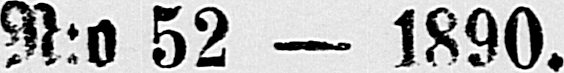N:o 52 — 1890.
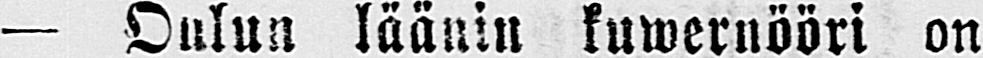— Oulun läänin kuwernööri on
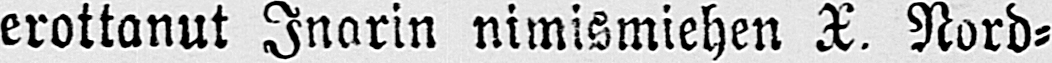erottanut Inarin nimismiehen T. Nord-
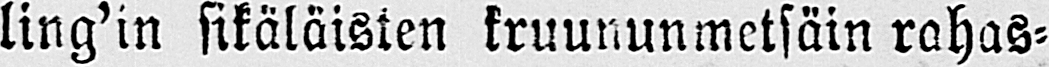lingin sikäläisten kruununmetsäin rahas-
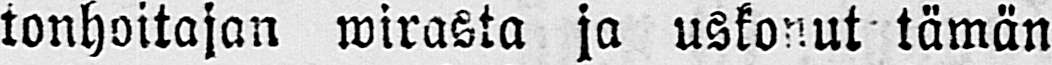tonhoitajan wirasta ja uskonut tämän
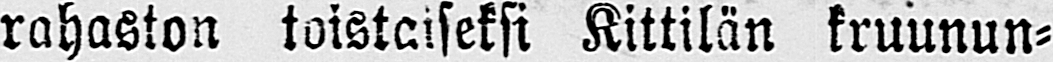rahaston toistaiseksi Kittilän kruunun-
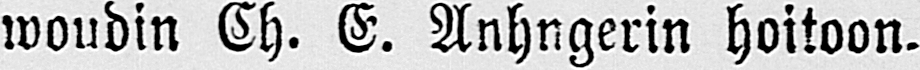woudin Ch. E. Anhngerin hoitoon.
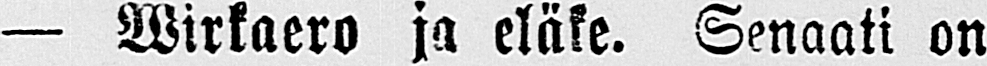— Wirkaero ja eläke. Senaati on
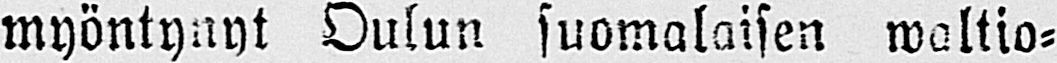myöntynyt Oulun suomalaisen waltio-
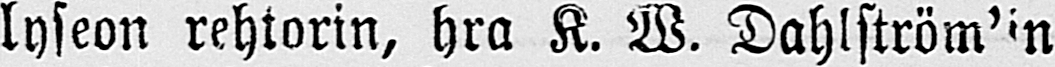lyseon rehtorin, hra K. W. Dahlström'in
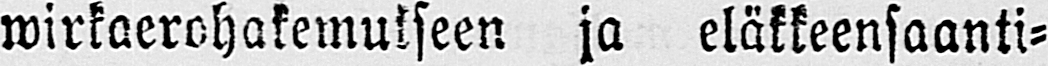wirkaerohakemukseen ja eläkkeensaanti-
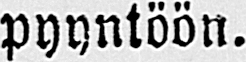pyyntöön.
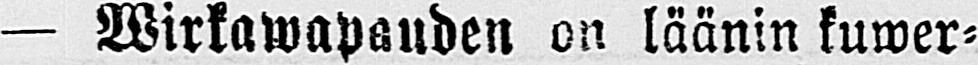— Wirkawapauden on läänin kuwer-
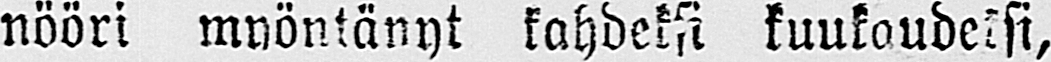nööri myöntänyt kahdeksi kuukaudeksi,
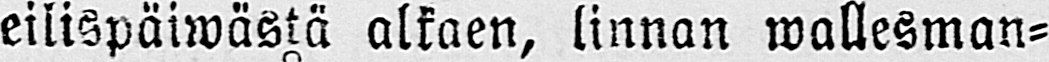eilispäwästä alkaen, linnan wallesman-
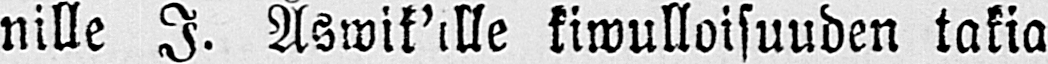nille I. Åswik’ille kiwulloisuuden takia
